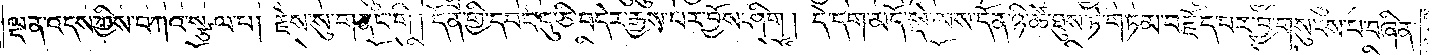ལྡན་འདས་ཀྱིས་བཀའ་སྩལ་པ། རྗེས་སུ་གནང་གི །དོན་གྱི་དབང་དུ་ཅི་བདེར་རྒྱས་པར་བྱོས་ཤིག། དེ་དག་མདོ་སྡེ་ལས་དོན་ཉི་ཚེ་ཐུས་ཏེ་གཏམ་བརྗོད་པར་བྱ་གསུངས་པ་བཞིན་
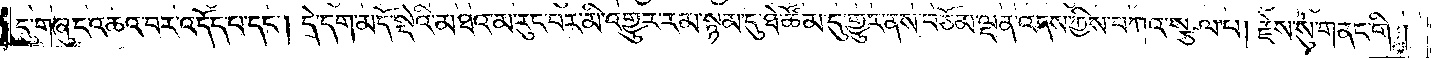དུ་གཞུང་འཆའ་བར་འདོད་པ་དང༌། དེ་དག་མདོ་སྡེའི་མཐའ་མ་རུང་བར་མི་འགྱུར་རམ་སྙམ་དུ་ཐེ་ཚོམ་དུ་གྱུར་ནས་བཅོམ་ལྡན་འདས་ཀྱིས་བཀའ་སྩལ་པ། རྗེས་སུ་གནང་གི།
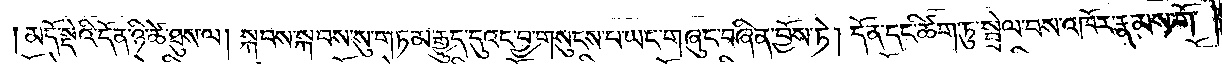མདོ་སྡེའི་དོན་ཉི་ཚེ་ཐུས་ལ། སྐབས་སྐབས་སུ་གཏམ་རྒྱུད་དུའང་བྱ་གསུངས་པ་ཡང་གཞུང་བཞིན་བྱོས་ཏེ། དོན་དང་ཚིག་ཏུ་སྦྲེལ་བས་འཁོར་རྣམས་གོ་
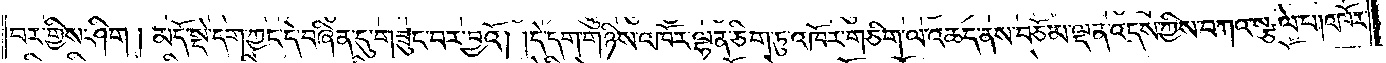བར་གྱིས་ཤིག །མདོ་སྡེ་དག་ཀྱང་དེ་བཞིན་དུ་གཟུང་བར་བྱའོ། །དེ་དག་གཉིས་འཁོར་ལྷན་ཅིག་ཏུ་འཁོར་གཅིག་ལ་འཆད་ནས་བཅོམ་ལྡན་འདས་ཀྱིས་བཀའ་སྩལ་པ། འཁོར་
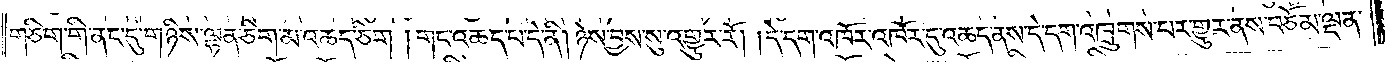གཅིག་གི་ནང་དུ་གཉིས་ལྷན་ཅིག་མ་འཆད་ཅིག །གང་འཆད་པ་དེ་ནི། ཉེས་བྱས་སུ་འགྱུར་རོ། །དེ་དག་འཁོར་འཁོར་དུ་འཆད་ནས་དེ་དག་འཁྲུགས་པར་གྱུར་ནས་བཅོམ་ལྡན་
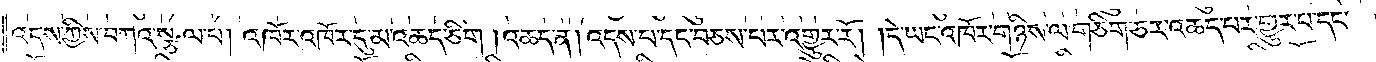འདས་ཀྱིས་བཀའ་སྩལ་པ། འཁོར་འཁོར་དུ་མ་འཆད་ཅིག །འཆད་ན། འདས་པ་དང་བཅས་པར་འགྱུར་རོ། །དེ་ཡང་འཁོར་གཉིས་ལ་གཅིག་ཅར་འཆད་པར་གྱུར་པ་དང་
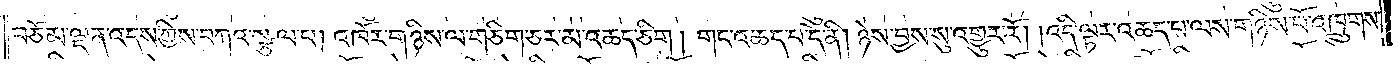བཅོམ་ལྡན་འདས་ཀྱིས་བཀའ་སྩལ་པ། འཁོར་གཉིས་ལ་གཅིག་ཅར་མ་འཆད་ཅིག། གང་འཆད་པ་དེ་ནི། ཉེས་བྱས་སུ་འགྱུར་རོ། །འདི་ལྟར་འཆད་པ་ལས་གཉིས་པོ་འཁྲུགས་
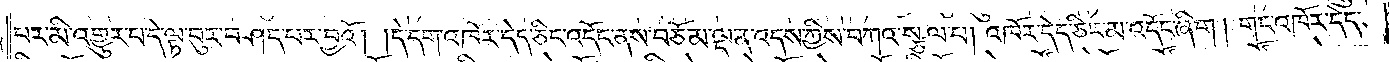པར་མི་འགྱུར་པ་དེ་ལྟ་བུར་བཤད་པར་བྱའོ། །དེ་དག་འཁོར་དེད་ཅིང་འདོང་ནས་བཅོམ་ལྡན་འདས་ཀྱིས་བཀའ་སྩལ་པ། འཁོར་དེད་ཅིང་མ་འདོང་ཞིག། གང་འཁོར་དེད་
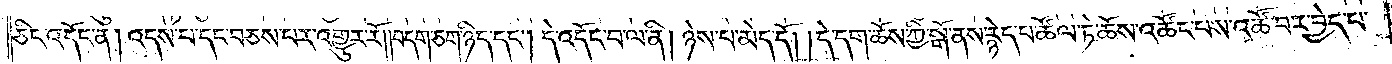ཅིང་འདོང་ན། འདས་པ་དང་བཅས་པར་འགྱུར་རོ། །བདག་ཅག་ཉིད་དང༌། དེ་འདོང་བ་ལ་ནི། ཉེས་པ་མེད་དོ། །དེ་དག་ཆོས་ཀྱི་སྒོ་ནས་རྙེད་པ་ཚོལ་ཏེ་ཆོས་འཚོང་པས་འཚོ་བར་བྱེད་པ་
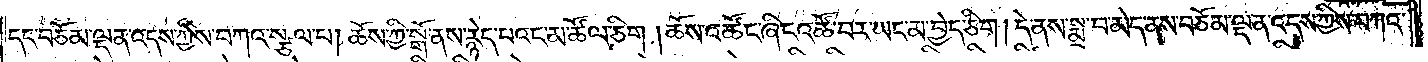དང་བཅོམ་ལྡན་འདས་ཀྱིས་བཀའ་སྩལ་པ། ཆོས་ཀྱི་སྒོ་ནས་རྙེད་པའང་མ་ཚོལ་ཅིག །ཆོས་འཚོང་ཞིང་འཚོ་བར་ཡང་མ་བྱེད་ཅིག །དེ་ནས་སྨྲ་བ་མེད་ནས་བཅོམ་ལྡན་འདས་ཀྱིས་བཀའ་
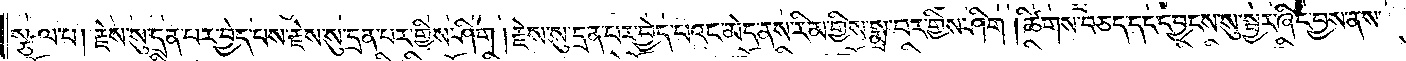སྩལ་པ། རྗེས་སུ་དྲན་པར་བྱེད་པས་རྗེས་སུ་དྲན་པར་གྱིས་ཤིག །རྗེས་སུ་དྲན་པར་བྱེད་པའང་མེད་ནས་རིམ་གྱིས་སྨྲ་བར་གྱིས་ཤིག །ཚིགས་བཅད་པ་དང་དབྱངས་སུ་སྦྱར་ཞིང་བྱས་ནས་
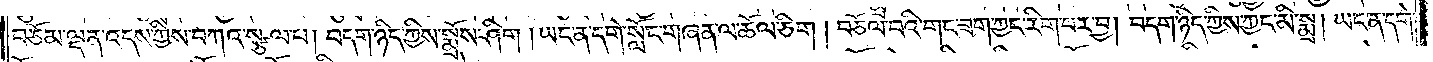བཅོམ་ལྡན་འདས་ཀྱིས་བཀའ་སྩལ་པ། བདག་ཉིད་ཀྱིས་སྨྲོས་ཤིག །ཡང་ན་དགེ་སློང་གཞན་ལ་ཆོལ་ཅིག །བཅོལ་བའི་གང་ཟས་ཀྱང་རིག་པར་བྱ། བདག་ཉིད་ཀྱིས་ཀྱང་མི་སྨྲ། ཡང་ན་དགེ་
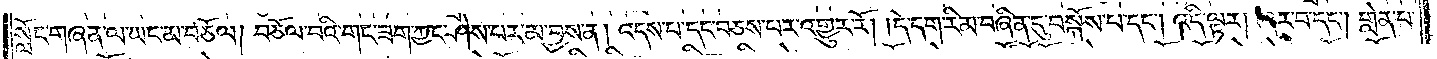སློང་གཞན་ལ་ཡང་མ་བཅོལ། བཅོལ་བའི་གང་ཟག་ཀྱང་ཤེས་པར་མ་བྱས་ན། འདས་པ་དང་བཅས་པར་འགྱུར་རོ། །དེ་དག་རིམ་བཞིན་དུ་བསྐོས་པ་དང༌། འདི་ལྟར། ཞར་བ་དང༌། གླེན་པ་
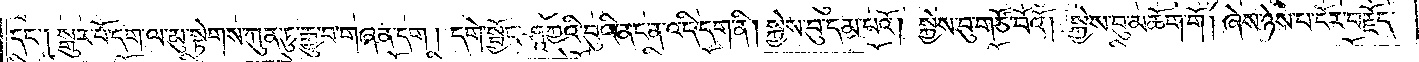དང༌། སྒུར་པོ་དག་ལ་མུ་སྟེགས་ཀུན་ཏུ་རྒྱུ་བ་གཞན་དག། དགེ་སྤྱོད་ཤཱཀྱའི་བུའི་ནང་ན་འདི་དག་ནི། སྐྱེས་བུ་དམ་པའོ། སྐྱེས་བུ་གཙོ་བོའོ། སྐྱེས་བུ་མཆོག་གོ། ཞེས་ཉེས་པ་ངོར་བརྗོད་
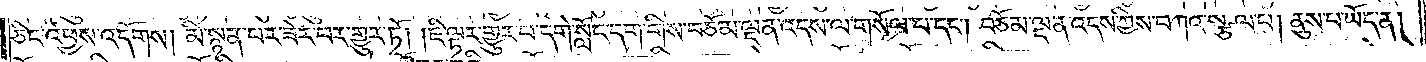ཅིང་འཕྱས་འདོགས། མི་སྙན་པར་ཟེར་བར་གྱུར་ཏོ། །ཇི་ལྟར་གྱུར་པ་དགེ་སློང་དག་གིས་བཅོམ་ལྡན་འདས་ལ་གསོལ་པ་དང༌། བཅོམ་ལྡན་འདས་ཀྱིས་བཀའ་སྩལ་པ། ནུས་པ་ཡོད་ན།
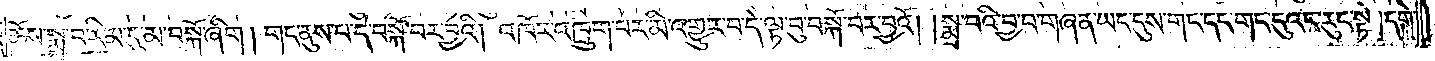ཆོས་སྨྲ་བ་རིམ་དུ་མ་བསྐོ་ཞིག། གང་ནུས་པ་དེ་བསྐོ་བར་བྱའི། འཁོར་འཁྲུག་པར་མི་འགྱུར་བ་དེ་ལྟ་བུ་བསྐོ་བར་བྱའོ། །སྨྲ་བའི་བྱ་བ་གཞན་ཡང་དུས་གང་དང་གང་དུའང་རུང་སྟེ། དགེ་
